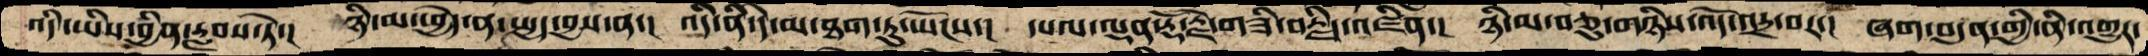འདི་ཡིས་བྱིན་རླབས་ཏེ་།  ཉི་མ་ཕྱེད་ན་སྤྱད་བྱས་ན་།  འདི་ནི་དེ་མ་ཐག་ཏུ་ཡོངས་།  དཔལ་ལྡན་རྡོ་རྗེ་གཟི་བརྗིད་འཛིན་།  ཉི་མ་བཅུ་གཉིས་འོད་འདྲ་བར་།  ཞག་བདུན་གྱི་ནི་འགྱུར་
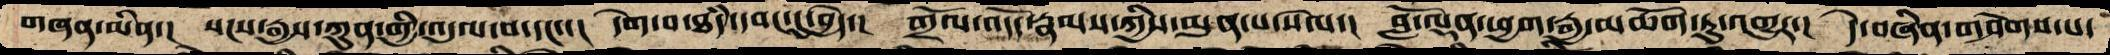གཞན་མིན་།  སངས་རྒྱས་ཀུན་གྱི་འདུལ་བ་དང་་།  དེག་པ་ཐཾད་དབང་དུ་བྱེད་།  གྲོལ་འདོད་རྣམས་ཀྱིས་མུན་པ་སེལ་།  བློ་ལྡན་ཕྱག་རྒྱ་མཆོག་ཏུ་འགྱུར་།  དེ་བཞིན་གཤེགས་པ་
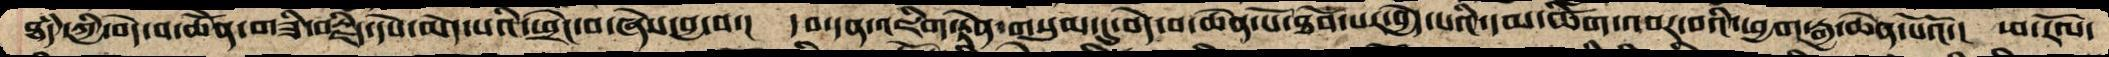ཐཾད་ཀྱི་བདེ་བ་ཆེནོ་གཟི་བརྗིད་དཔེ་མེད་པའི་ཕྲེང་བ་ཞེས་བྱ་བ་།   དབ་དན་འཇིག་རྟེན་གསུམ་དུ་བདེ་བ་ཆེན་པོ་ཐོབ་པར་བྱེད་པའི་དམ་ཚིག་འབར་བའི་ཕྱག་རྒྱ་ཆེན་པོའོ་།  ཕ་རོལ་
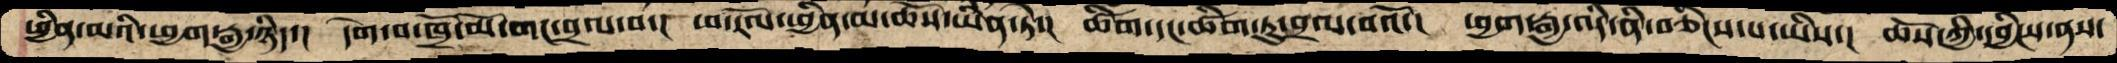ཕྱིན་མའི་ཕྱག་རྒྱ་ཉིད་།  དགེ་བ་ཁྲོ་མོ་གང་་བྲལ་བ་།  ཕ་རོལ་ཕྱིན་མ་ཆོས་ཡིན་ཏེ་།  ཚིག་དང་ཚིག་ཏུ་བྲལ་བའོ་།  ཕྱག་རྒྱ་འདི་ནི་བཅིངས་པ་ཡིས་།  ཆོས་ཀྱི་དབྱིངས་ནས་
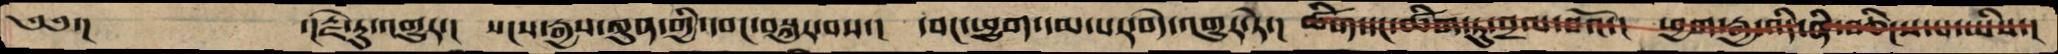༄༅་།       ་།རྗེ་རུ་འགྱུར་།   སངས་རྒྱས་ཀུན་གྱི་དབང་བསྐུར་བས་།  དབང་ཕྱུག་དམ་པར་བདེ་འགྱུར་ཏེ་།  ཚིག་དང་ཚིག་ཏུ་བྲལ་བའོ་།  ཕྱག་རྒྱ་འདི་ནི་བཅིངས་པ་ཡིས་།
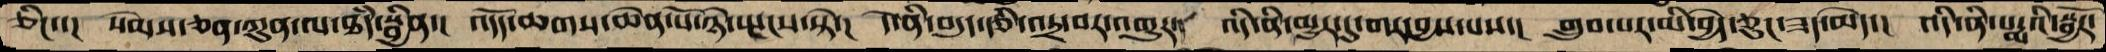ཅིང་་།  སེམས་ཅན་ཀུན་ལ་ཐཾད་སྦྱིན་།  འདོད་ཆགས་ཆེན་པོ་ཉེ་སྤངས་སྟེ་།  དེ་ནི་བདུད་རྩི་འདྲ་བར་འགྱུར་།  འདི་ནི་མྱུར་དུ་གར་བྱས་པས་།  གྲུབ་པར་མི་བྱེད་ཅུང་ཟད་མེད་།  འདི་ནི་པདྨའི་སྦྱོར་
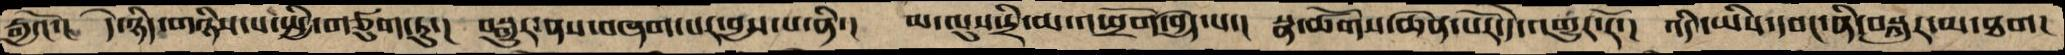རྒྱའོ་།   དེ་ཉིད་གཉིས་པ་སྤྱི་གཙུག་ཏུ་།  བསྒྱུར་ནས་བཞག་པར་བྱས་པ་ནི་།  མ་ལུས་དྲི་མ་འཕྲོག་བྱེད་པ་།  སྣ་ཚོགས་ཆེན་པོར་དེ་འགྱུར་རོ་།  འདི་ཡིས་དབང་ནི་བསྐུར་མ་ཐག།
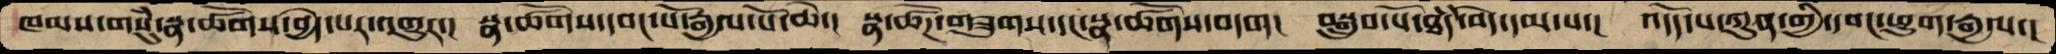ཁམས་གསུཾ་སྣ་ཚོགས་བྱེད་པར་འགྱུར་།  སྣ་ཚོགས་དབང་པོ་རྒྱལ་པོ་ཆེ་།  སྣ་ཚོགས་གཟུགས་དང་སྣ་ཚོགས་བདག།  བསྒྲུབ་པོ་ཐཾད་བདེ་དམ་པ་།  འདོད་པ་ཀུན་གྱི་དབང་ཕྱུག་རྒྱལ་།
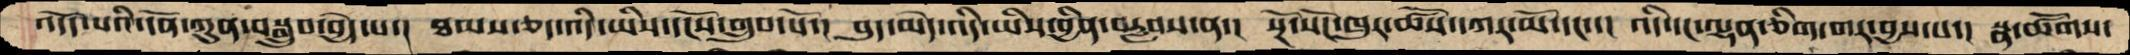འདོད་པའི་དོན་ཀུན་བསྒྲུབ་བྱེད་པ་།  ཐམས་ཅད་འདི་ཡིས་དངོས་གྲུབ་པོ་།  བུད་མེད་འདི་ཡིས་བྱིན་བརླབས་ན་།  སྔོ་སོང་ཁུར་ཚོས་དཀར་མོ་དང་་།  འདི་དང་ལྷན་ཅིག་གར་བྱས་པ་།  སྣ་ཚོགས་
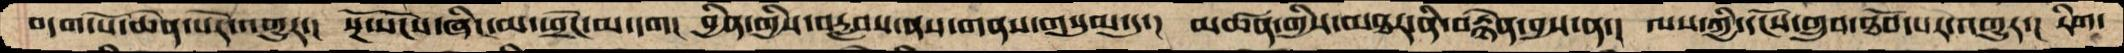བདག་པོ་ཆེན་པོར་འགྱུར་།  སྔོ་སོངས་ཞིང་མ་ཕྲོང་མ་དག།  བྱིན་གྱིས་བརླབས་ནས་གནས་གསུམ་དུ་།  མཚན་གྱིས་མཐར་ནི་བརྙེན་བྱས་ན་།  ལས་ཀྱི་དངོས་གྲུབ་ཐོབ་པར་འགྱུར་།  རིག་
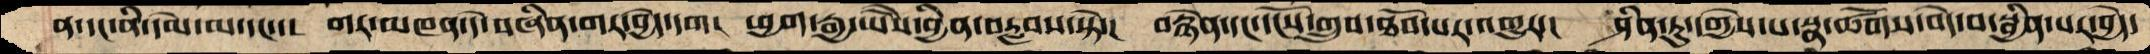ན་དང་ནི་དམ་མ་དང་་།   གར་མཁན་དེ་བཞིན་གར་བྱེད་དག།  ཕྱག་རྒྱ་ཡཻས་བྱིན་བརླབས་སྟེ་།  བརྙེན་དང་དངོས་གྲུབ་ཐོབ་པར་འགྱུར་།  ཤིན་ཏུ་དགྱེས་པ་སྣ་ཚོགས་བདེ་བ་སྦྱིན་པར་བྱེད་
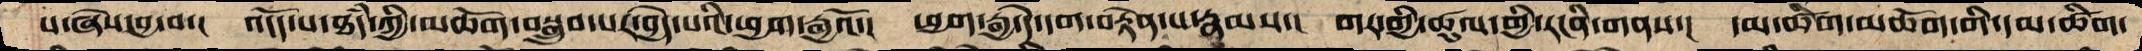པ་ཞེས་བྱ་བ་།   འདོད་པ་ཐཾད་ཀྱི་མཆོག་བསྒྲུབ་པར་བྱེད་པའི་ཕྱག་རྒྱའོ་།  ཕྱག་རྒྱ་དེ་དག་བརྟེན་པ་རྣམས་།   གར་གྱི་ཚུལ་གྱི་རངིན་གནས་།  དམ་ཚིག་མཆོག་གི་དམ་ཚིག་
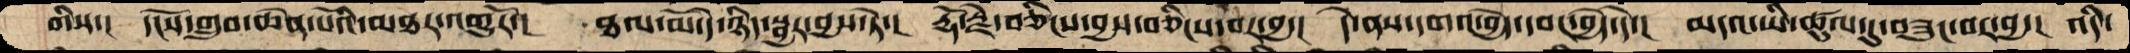གིས་།  དངོས་གྲུབ་ཆེན་པོའི་མཐར་འགྱུརོ་།  ཐལ་མོ་དེ་ཉིད་སྦྱར་བྱས་ཏེ་།  རྡོ་རྗེ་བཅིངས་བྱས་བཅིངས་བར་བྱ་།  དེ་ནས་དགའ་བྱེད་དབང་བྱེད་དེ་།  མདའ་ཡི་ཚུལ་དུ་བཟུང་བར་བྱ་།  འདི་
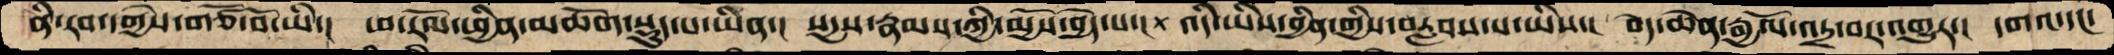ནི་རབ་དགྱེས་གཙོ་བོ་ཡི་། ཕ་རོལ་ཕྱིན་མཆོག་སྡུད་པ་ཡིན་། སདྱས་རྣམས་ཀྱི་མྱོས་བྱེད་པ་། འདི་ཡིས་བྱིན་གྱིས་བརླབས་པ་ཡིས་། བདེ་ཆེན་རྒྱལོ་འདྲ་བར་འགྱུར་། དགའ་དང་
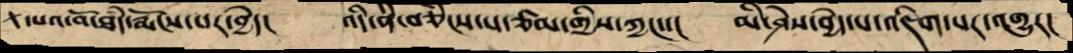དཔའ་བོ་ཐདཾ་རྨོངས་པར་བྱེད།  འདི་ནི་བཅིངས་པ་ཙམ་གྱིས་ཀྱང་་།  མི་ཤེས་བྱེད་པ་འཇིག་པར་འགྱུར།
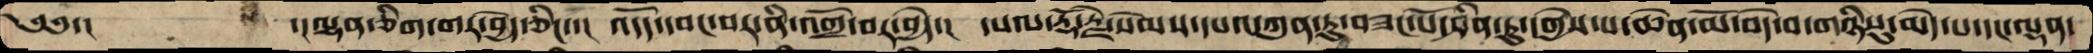༄༅་།           ་།ལྷན་ཅིག་གར་བྱེད་ཅིང་་།  འདོད་དབང་བར་ནི་འགྲོ་བར་བྱེད་།  དཔལ་རྡོ་རྗེ་སེམས་དཔའ་ཀུན་ཏུ་བཟང་པོ་ཤིན་ཏུ་དགྱེས་པ་ཆེན་མོ་བདེ་བ་གཉིསུ་མེད་པ་དང་ལྷན་
